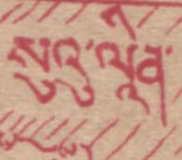སྲུའུ་ལཱིན་
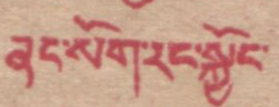ནང་སོག་རང་སྐྱོང་
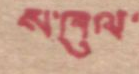ས་ཁུལ་
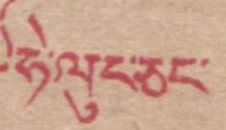ཧེ་ལུང་ཅང་
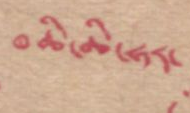ཆི་ཆི་ཧར་
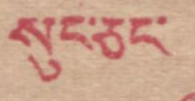སུང་ཅང་
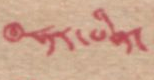ཧར་པིན་
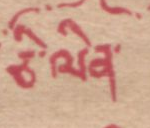ཅི་ལིན་
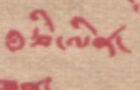ཅི་ལིན་
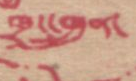ཁྲང་ཁྲུན་
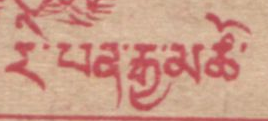རི་པན་རྒྱ་མཚོ་
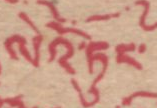ལེའོ་ཏུང་
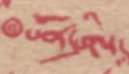པོན་ཤིས་
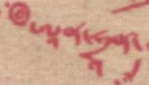ཨཱན་ཧྲཱན་
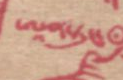ཨཱན་ཏུང་
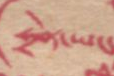ཧྲེན་ཡང་
